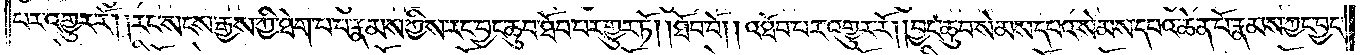པར་འགྱུར་རོ། །རང་སངས་རྒྱས་ཀྱི་ཐེག་པ་པ་རྣམས་ཀྱིས་རང་བྱང་ཆུབ་ཐོབ་པར་གྱུར་ཏོ། །ཐོབ་བོ། །འཐོབ་པར་འགྱུར་རོ། །བྱང་ཆུབ་སེམས་དཔའ་སེམས་དཔའ་ཆེན་པོ་རྣམས་ཀྱང་བྱང་
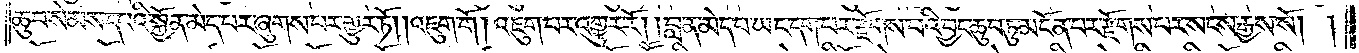ཆུབ་སེམས་དཔའི་སྐྱོན་མེད་པར་ཞུགས་པར་གྱུར་ཏོ། །འཇུག་གོ། འཇུག་པར་འགྱུར་རོ། །བླ་ན་མེད་པ་ཡང་དག་པར་རྫོགས་པའི་བྱང་ཆུབ་ཏུ་མངོན་པར་རྫོགས་པར་སངས་རྒྱས་སོ། །
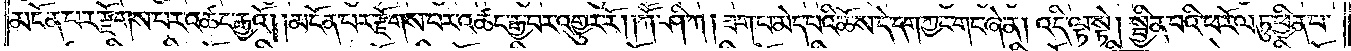མངོན་པར་རྫོགས་པར་འཚང་རྒྱའོ། །མངོན་པར་རྫོགས་པར་འཚང་རྒྱ་བར་འགྱུར་རོ། །ཀཽ་ཤི་ཀ། ཟག་པ་མེད་པའི་ཆོས་དེ་དག་ཀྱང་གང་ཞེ་ན། འདི་ལྟ་སྟེ། སྦྱིན་པའི་ཕ་རོལ་ཏུ་ཕྱིན་པ་
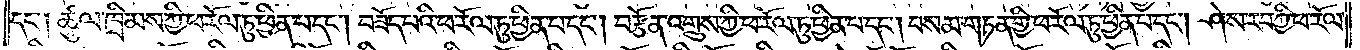དང༌། ཚུལ་ཁྲིམས་ཀྱི་ཕ་རོལ་ཏུ་ཕྱིན་པ་དང༌། བཟོད་པའི་ཕ་རོལ་ཏུ་ཕྱིན་པ་དང༌། བརྩོན་འགྲུས་ཀྱི་ཕ་རོལ་ཏུ་ཕྱིན་པ་དང༌། བསམ་གཏན་གྱི་ཕ་རོལ་ཏུ་ཕྱིན་པ་དང༌། ཤེས་རབ་ཀྱི་ཕ་རོལ་
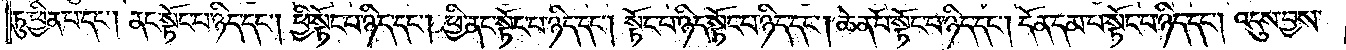ཏུ་ཕྱིན་པ་དང༌། ནང་སྟོང་པ་ཉིད་དང༌། ཕྱི་སྟོང་པ་ཉིད་དང༌། ཕྱི་ནང་སྟོང་པ་ཉིད་དང༌། སྟོང་པ་ཉིད་སྟོང་པ་ཉིད་དང༌། ཆེན་པོ་སྟོང་པ་ཉིད་དང༌། དོན་དམ་པ་སྟོང་པ་ཉིད་དང༌། འདུས་བྱས་
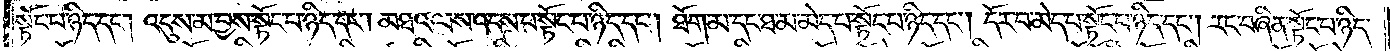སྟོང་པ་ཉིད་དང༌། འདུས་མ་བྱས་སྟོང་པ་ཉིད་དང༌། མཐའ་ལས་འདས་པ་སྟོང་པ་ཉིད་དང༌། ཐོག་མ་དང་ཐ་མ་མེད་པ་སྟོང་པ་ཉིད་དང༌། དོར་བ་མེད་པ་སྟོང་པ་ཉིད་དང༌། རང་བཞིན་སྟོང་པ་ཉིད་
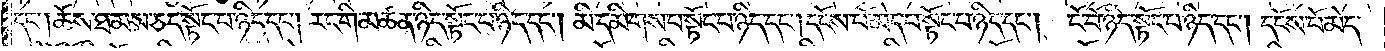དང༌། ཆོས་ཐམས་ཅད་སྟོང་པ་ཉིད་དང༌། རང་གི་མཚན་ཉིད་སྟོང་པ་ཉིད་དང༌། མི་དམིགས་པ་སྟོང་པ་ཉིད་དང༌། དངོས་པོ་མེད་པ་སྟོང་པ་ཉིད་དང༌། ངོ་བོ་ཉིད་སྟོང་པ་ཉིད་དང༌། དངོས་པོ་མེད་
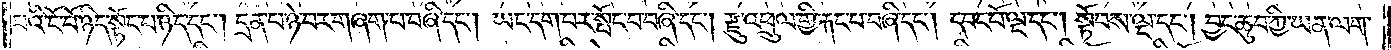པའི་ངོ་བོ་ཉིད་སྟོང་པ་ཉིད་དང༌། དྲན་པ་ཉེ་བར་གཞག་པ་བཞི་དང༌། ཡང་དག་པར་སྤོང་བ་བཞི་དང༌། རྫུ་འཕྲུལ་གྱི་རྐང་པ་བཞི་དང༌། དབང་པོ་ལྔ་དང༌། སྟོབས་ལྔ་དང༌། བྱང་ཆུབ་ཀྱི་ཡན་ལག་
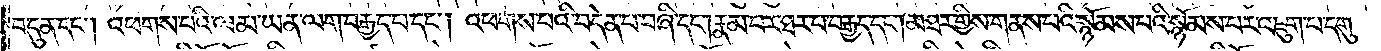བདུན་དང༌། འཕགས་པའི་ལམ་ཡན་ལག་བརྒྱད་པ་དང༌། འཕགས་པའི་བདེན་པ་བཞི་དང༌། རྣམ་པར་ཐར་པ་བརྒྱད་དང༌། མཐར་གྱིས་གནས་པའི་སྙོམས་པར་འཇུག་པ་དགུ་
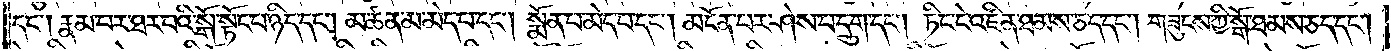དང༌། རྣམ་པར་ཐར་པའི་སྒྲོ་སྟོང་པ་ཉིད་དང༌། མཚན་མ་མེད་པ་དང༌། སྨོན་པ་མེད་པ་དང༌། མངོན་པར་ཤེས་པ་དྲུག་དང༌། ཏིང་ངེ་འཛིན་ཐམས་ཅད་དང༌། གཟུངས་ཀྱི་སྒོ་ཐམས་ཅད་དང༌།
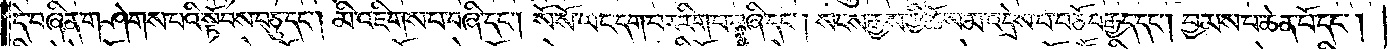དེ་བཞིན་གཤེགས་པའི་སྟོབས་བཅུ་དང༌། མི་འཇིགས་པ་བཞི་དང༌། སོ་སོ་ཡང་དག་པར་རིག་པ་བཞི་དང༌། སངས་རྒྱས་ཀྱི་ཆོས་མ་འདྲེས་པ་བཅོ་བརྒྱད་དང༌། བྱམས་པ་ཆེན་པོ་དང༌།
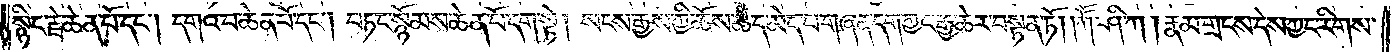སྙིང་རྗེ་ཆེན་པོ་དང༌། དགའ་བ་ཆེན་པོ་དང༌། བཏང་སྙོམས་ཆེན་པོ་དག་སྟེ། སངས་རྒྱས་ཀྱི་ཆོས་ཚད་མེད་པ་གཞན་དག་ཀྱང་རྒྱ་ཆེར་བསྟན་ཏོ། །ཀཽ་ཤི་ཀ། རྣམ་གྲངས་དེས་ཀྱང་རིགས་
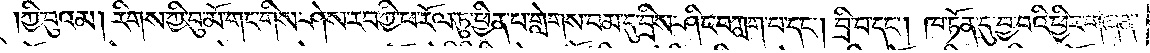ཀྱི་བུའམ། རིགས་ཀྱི་བུ་མོ་གང་གིས་ཤེས་རབ་ཀྱི་ཕ་རོལ་ཏུ་ཕྱིན་པ་གླེགས་བམ་དུ་བྲིས་ཤིང་བཀླག་པ་དང༌། བྲི་བ་དང༌། ཁ་ཏོན་དུ་བྱ་བའི་ཕྱིར་གཞན་
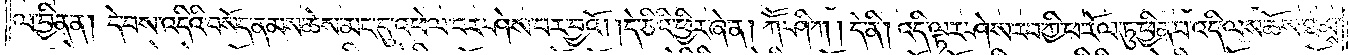ལ་བྱིན་ན། དེ་བས་འདིའི་བསོད་ནམས་ཆེས་མང་དུ་འཕེལ་བར་ཤེས་པར་བྱའོ། །དེ་ཅིའི་ཕྱིར་ཞེ་ན། ཀཽ་ཤི་ཀ། དེ་ནི། འདི་ལྟར་ཤེས་རབ་ཀྱི་ཕ་རོལ་ཏུ་ཕྱིན་པ་འདི་ལས་ཆོས་ཐམས་
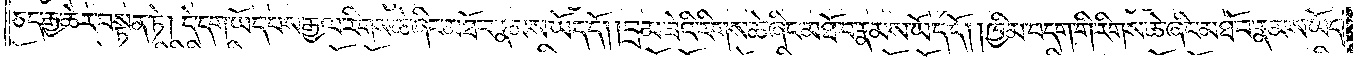ཅད་རྒྱ་ཆེར་བསྟན་ཏེ། དེ་དག་ཡོད་པས་རྒྱལ་རིགས་ཆེ་ཞིང་མཐོ་བ་རྣམས་ཡོད་དོ། །བྲམ་ཟེའི་རིགས་ཆེ་ཞིང་མཐོ་བ་རྣམས་ཡོད་དོ། །ཁྱིམ་བདག་གི་རིགས་ཆེ་ཞིང་མཐོ་བ་རྣམས་ཡོད་
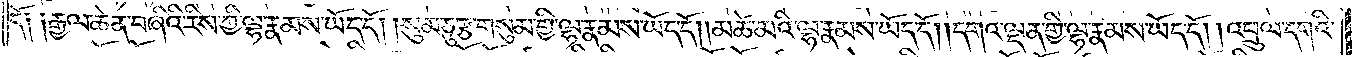དོ༑ ༑རྒྱལ་ཆེན་བཞིའི་རིས་ཀྱི་ལྷ་རྣམས་ཡོད་དོ། །སུམ་ཅུ་རྩ་གསུམ་གྱི་ལྷ་རྣམས་ཡོད་དོ། །མཚེ་མའི་ལྷ་རྣམས་ཡོད་དོ། །དགའ་ལྡན་གྱི་ལྷ་རྣམས་ཡོད་དོ། །འཕྲུལ་དགའི་
